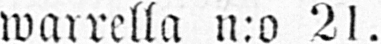warrella n:o 21.
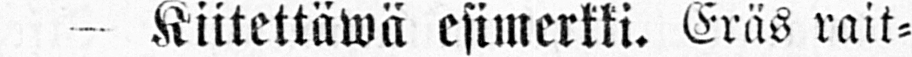— Kiitettäwä esimerkki. Eräs rait-
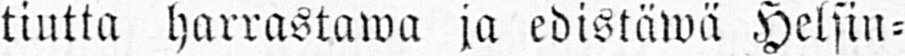tiutta harrastawa ja edistäwä Helsin-
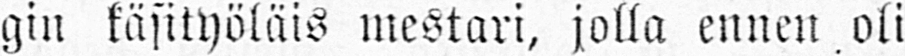gin käsityöläis mestari, jolla ennen oli
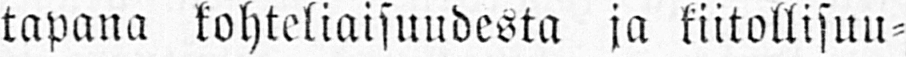tapana kohteliaisuudesta ja kiitollisuu-
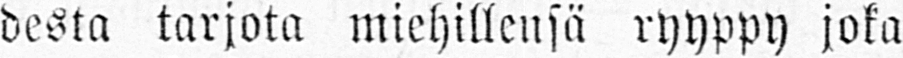desta tarjota miehillensä ryyppy joka
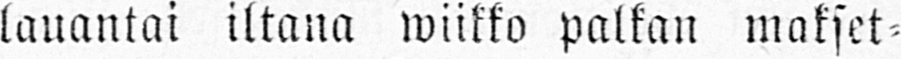lauantai iltana wiikko palkan makset-
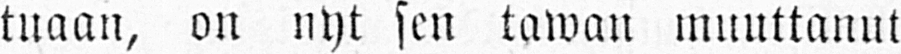tuaan, on nyt sen tawan muuttanut
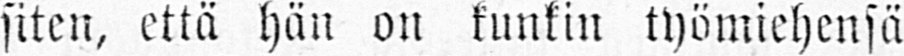siten, että hän on kunkin työmiehensä
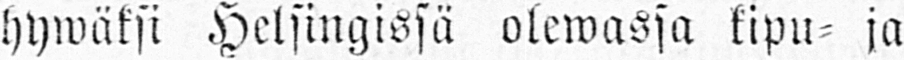hywäksi Helsingissä olewassa kipu- ja
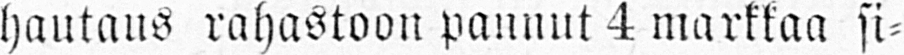hautaus rahastoon pannut 4 markkaa si-
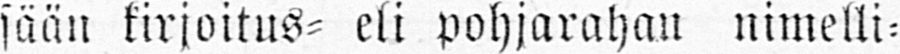sään kirjoitus- eli pohjarahan nimelli-
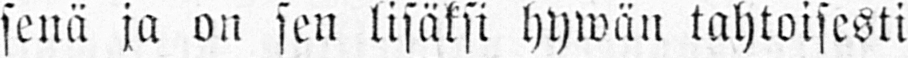senä ja on sen lisäksi hywän tahtoisesti
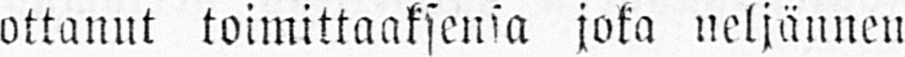ottanut toimittaaksensa joka neljännen
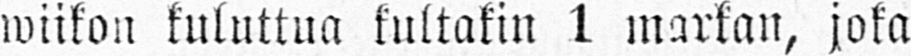wiikon kuluttua kultakin 1 markan, joka
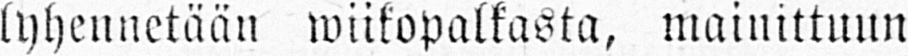lyhennetään wiikopalkasta, mainittuun
